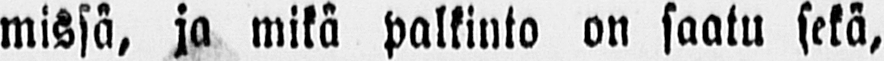missä, ja mikä palkinto on saatu sekä,
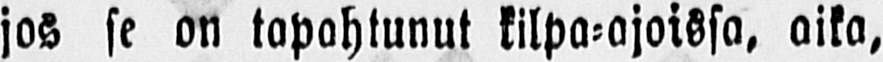jos se on tapahtunut kilpa-ajoissa, aika,
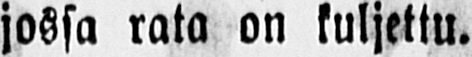jossa rata on kuljettu.
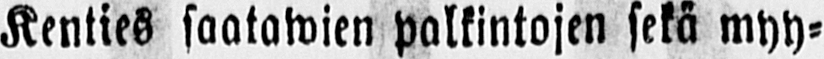Kenties saatawien palkintojen sekä myy-
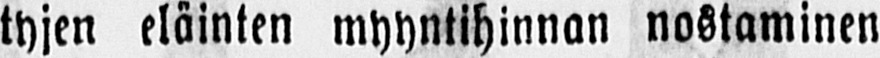tyjen eläinten myyntihinnan nostaminen
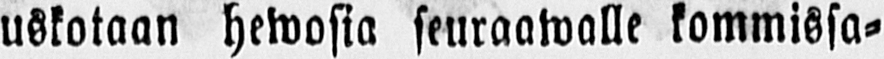uskotaan hewosia seuraawalle kommissa-
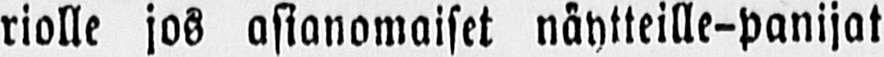riolle jos asianomaiset näytteille-panijat
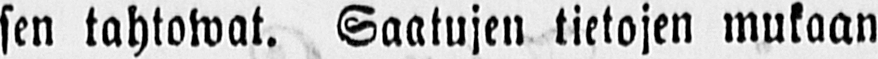sen tahtowat. Saatujen tietojen mukaan
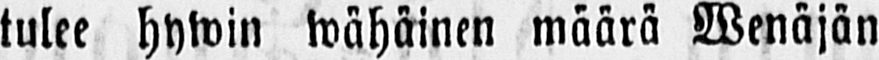tulee hywin wähäinen määrä Wenäjän
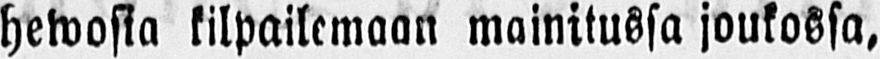hewosia kilpailemaan mainitussa joukossa,
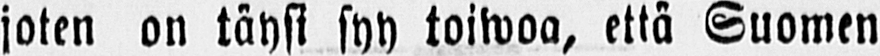joten on täysi syy toiwoa, että Suomen
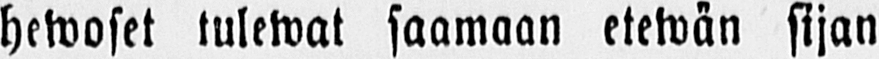hewoset tulewat saamaan etewän sijan
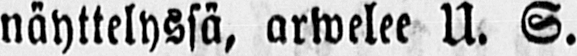näyttelyssä, arwelee U. S.
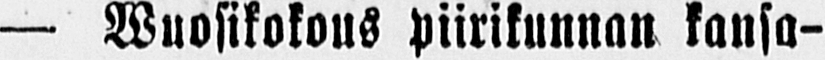— Wuosikokous piirikunnan kansa-
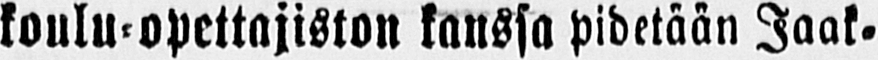koulu-opettajiston kanssa pidetään Jaak-
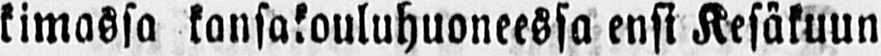kimassa kansakouluhuoneessa ensi Kesäkuun
